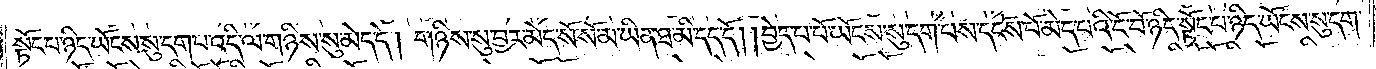སྟོང་པ་ཉིད་ཡོངས་སུ་དག་པ་འདི་ལ་གཉིས་སུ་མེད་དེ། གཉིས་སུ་བྱར་མེད་སོ་སོ་མ་ཡིན་ཐ་མི་དད་དོ། །བྱེད་པ་པོ་ཡོངས་སུ་དག་པས་དངོས་པོ་མེད་པའི་ངོ་བོ་ཉིད་སྟོང་པ་ཉིད་ཡོངས་སུ་དག་
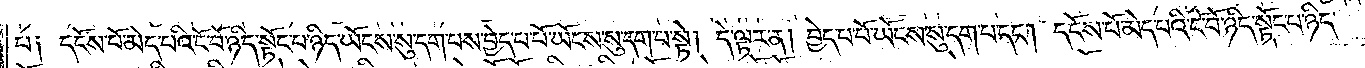པ། དངོས་པོ་མེད་པའི་ངོ་བོ་ཉིད་སྟོང་པ་ཉིད་ཡོངས་སུ་དག་པས་བྱེད་པ་པོ་ཡོངས་སུ་དག་པ་སྟེ། དེ་ལྟར་ན། བྱེད་པ་པོ་ཡོངས་སུ་དག་པ་དང༌། དངོས་པོ་མེད་པའི་ངོ་བོ་ཉིད་སྟོང་པ་ཉིད་
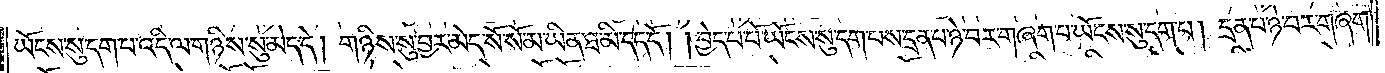ཡོངས་སུ་དག་པ་འདི་ལ་གཉིས་སུ་མེད་དེ། གཉིས་སུ་བྱར་མེད་སོ་སོ་མ་ཡིན་ཐ་མི་དད་དོ། །བྱེད་པ་པོ་ཡོངས་སུ་དག་པས་དྲན་པ་ཉེ་བར་གཞག་པ་ཡོངས་སུ་དག་པ། དྲན་པ་ཉེ་བར་གཞག་
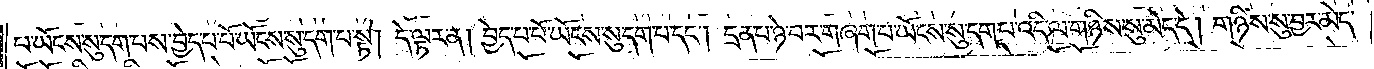པ་ཡོངས་སུ་དག་པས་བྱེད་པ་པོ་ཡོངས་སུ་དག་པ་སྟེ། དེ་ལྟར་ན། བྱེད་པ་པོ་ཡོངས་སུ་དག་པ་དང༌། དྲན་པ་ཉེ་བར་གཞག་པ་ཡོངས་སུ་དག་པ་འདི་ལ་གཉིས་སུ་མེད་དེ། གཉིས་སུ་བྱར་མེད་
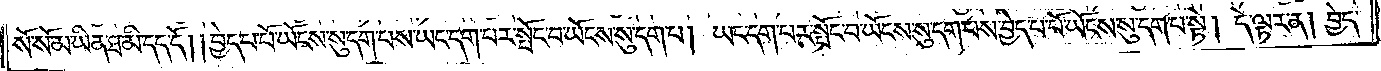སོ་སོ་མ་ཡིན་ཐ་མི་དད་དོ། །བྱེད་པ་པོ་ཡོངས་སུ་དག་པས་ཡང་དག་པར་སྤོང་བ་ཡོངས་སུ་དག་པ། ཡང་དག་པར་སྤོང་བ་ཡོངས་སུ་དག་པས་བྱེད་པ་པོ་ཡོངས་སུ་དག་པ་སྟེ། དེ་ལྟར་ན། བྱེད་
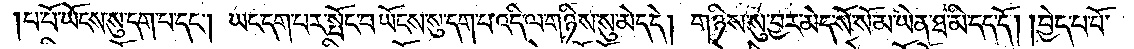པ་པོ་ཡོངས་སུ་དག་པ་དང༌། ཡང་དག་པར་སྤོང་བ་ཡོངས་སུ་དག་པ་འདི་ལ་གཉིས་སུ་མེད་དེ། གཉིས་སུ་བྱར་མེད་སོ་སོ་མ་ཡིན་ཐ་མི་དད་དོ། །བྱེད་པ་པོ་
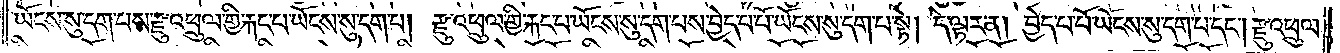ཡོངས་སུ་དག་པས་རྫུ་འཕྲུལ་གྱི་རྐང་པ་ཡོངས་སུ་དག་པ། རྫུ་འཕྲུལ་གྱི་རྐང་པ་ཡོངས་སུ་དག་པས་བྱེད་པ་པོ་ཡོངས་སུ་དག་པ་སྟེ། དེ་ལྟར་ན། བྱེད་པ་པོ་ཡོངས་སུ་དག་པ་དང༌། རྫུ་འཕྲུལ་
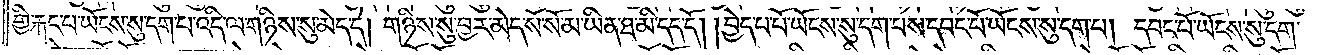གྱི་རྐང་པ་ཡོངས་སུ་དག་པ་འདི་ལ་གཉིས་སུ་མེད་དེ། གཉིས་སུ་བྱར་མེད་སོ་སོ་མ་ཡིན་ཐ་མི་དད་དོ། །བྱེད་པ་པོ་ཡོངས་སུ་དག་པས་དབང་པོ་ཡོངས་སུ་དག་པ། དབང་པོ་ཡོངས་སུ་དག་
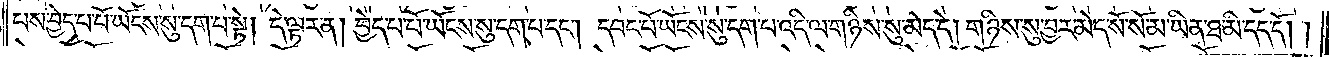པས་བྱེད་པ་པོ་ཡོངས་སུ་དག་པ་སྟེ། དེ་ལྟར་ན། བྱེད་པ་པོ་ཡོངས་སུ་དག་པ་དང༌། དབང་པོ་ཡོངས་སུ་དག་པ་འདི་ལ་གཉིས་སུ་མེད་དེ། གཉིས་སུ་བྱར་མེད་སོ་སོ་མ་ཡིན་ཐ་མི་དད་དོ། །
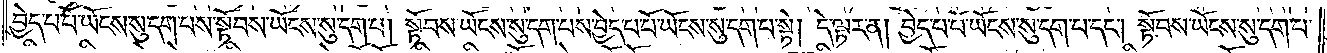བྱེད་པ་པོ་ཡོངས་སུ་དག་པས་སྟོབས་ཡོངས་སུ་དག་པ། སྟོབས་ཡོངས་སུ་དག་པས་བྱེད་པ་པོ་ཡོངས་སུ་དག་པ་སྟེ། དེ་ལྟར་ན། བྱེད་པ་པོ་ཡོངས་སུ་དག་པ་དང༌། སྟོབས་ཡོངས་སུ་དག་པ་
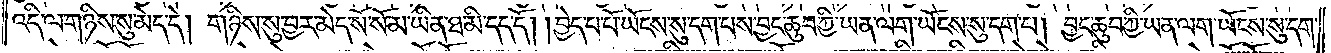འདི་ལ་གཉིས་སུ་མེད་དེ། གཉིས་སུ་བྱར་མེད་སོ་སོ་མ་ཡིན་ཐ་མི་དད་དོ། །བྱེད་པ་པོ་ཡོངས་སུ་དག་པས་བྱང་ཆུབ་ཀྱི་ཡན་ལག་ཡོངས་སུ་དག་པ། བྱང་ཆུབ་ཀྱི་ཡན་ལག་ཡོངས་སུ་དག་
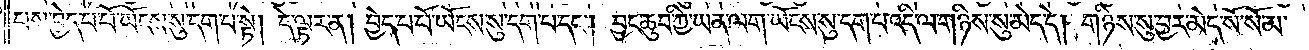པས་བྱེད་པ་པོ་ཡོངས་སུ་དག་པ་སྟེ། དེ་ལྟར་ན། བྱེད་པ་པོ་ཡོངས་སུ་དག་པ་དང༌། བྱང་ཆུབ་ཀྱི་ཡན་ལག་ཡོངས་སུ་དག་པ་འདི་ལ་གཉིས་སུ་མེད་དེ། གཉིས་སུ་བྱར་མེད་སོ་སོ་མ་
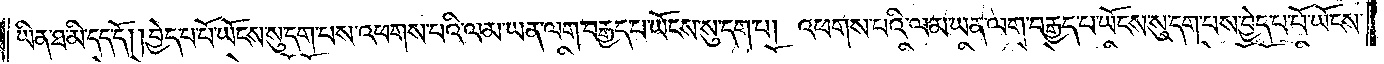ཡིན་ཐ་མི་དད་དོ། །བྱེད་པ་པོ་ཡོངས་སུ་དག་པས་འཕགས་པའི་ལམ་ཡན་ལག་བརྒྱད་པ་ཡོངས་སུ་དག་པ། འཕགས་པའི་ལམ་ཡན་ལག་བརྒྱད་པ་ཡོངས་སུ་དག་པས་བྱེད་པ་པོ་ཡོངས་
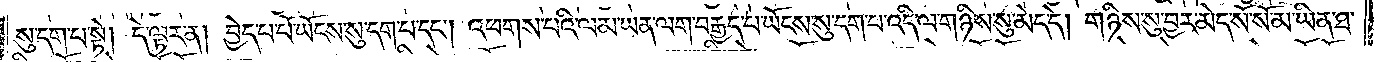སུ་དག་པ་སྟེ། དེ་ལྟར་ན། བྱེད་པ་པོ་ཡོངས་སུ་དག་པ་དང༌། འཕགས་པའི་ལམ་ཡན་ལག་བརྒྱད་པ་ཡོངས་སུ་དག་པ་འདི་ལ་གཉིས་སུ་མེད་དེ། གཉིས་སུ་བྱར་མེད་སོ་སོ་མ་ཡིན་ཐ་
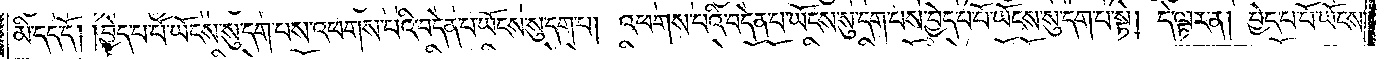མི་དད་དོ། །བྱེད་པ་པོ་ཡོངས་སུ་དག་པས་འཕགས་པའི་བདེན་པ་ཡོངས་སུ་དག་པ། འཕགས་པའི་བདེན་པ་ཡོངས་སུ་དག་པས་བྱེད་པ་པོ་ཡོངས་སུ་དག་པ་སྟེ། དེ་ལྟར་ན། བྱེད་པ་པོ་ཡོངས་
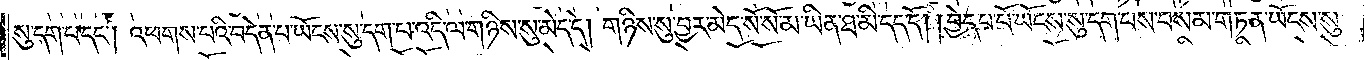སུ་དག་པ་དང༌། འཕགས་པའི་བདེན་པ་ཡོངས་སུ་དག་པ་འདི་ལ་གཉིས་སུ་མེད་དེ། གཉིས་སུ་བྱར་མེད་སོ་སོ་མ་ཡིན་ཐ་མི་དད་དོ། །བྱེད་པ་པོ་ཡོངས་སུ་དག་པས་བསམ་གཏན་ཡོངས་སུ་
